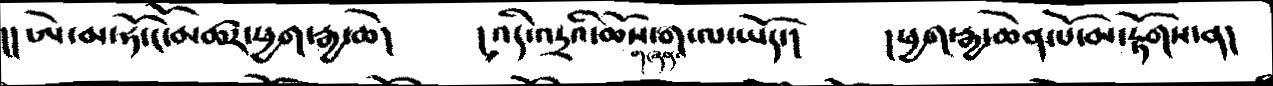།།ཨེ་མ་ཧོ་ངོ་མཚར་ཕྱག་རྒྱ་ཆེ།   །འདི་འདྲའི་ཆོས་གཞན་ག་ལ་ཡོད་།   །ཕྱག་རྒྱ་ཆེན་པོ་མ་རྟོགས་ན།
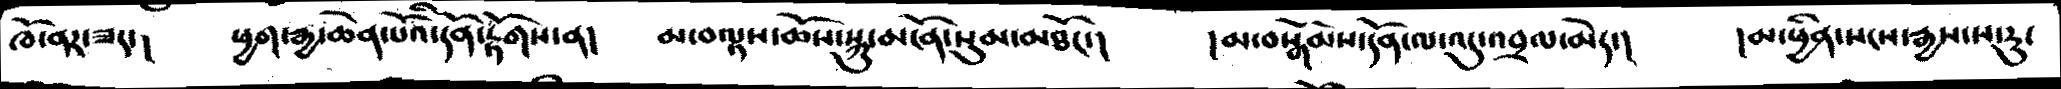ཁོ་ནར་ཟད་།    ཕྱག་རྒྱ་ཆེན་པོའི་དོན་རྟོགས་ན།   མ་བལྟས་ཆོས་སྐུ་མངོན་སུམ་མཐོང་།   ། མ་བསྒོམས་དོན་ལ་འདུ་འབྲལ་མེད་།   ། མ་ཕྱིན་སངས་རྒྱས་ས་རུ་
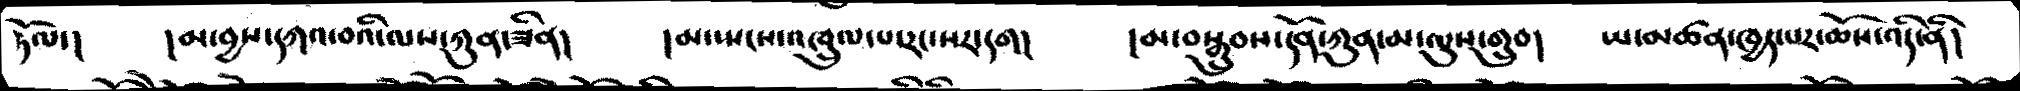རྟོལ་།     །མ་བྱས་དཀའ་བའི་ལས་ཀུན་ཟིན།   །མ་སྤངས་འཁྲུལ་པ་རང་སར་དག།   །མ་བསྒྲུབས་དོན་ཀུན་མ་ལུས་གྲུབ།   ཡ་མཚན་ཁྱད་པར་ཆོས་འདི་ནི།
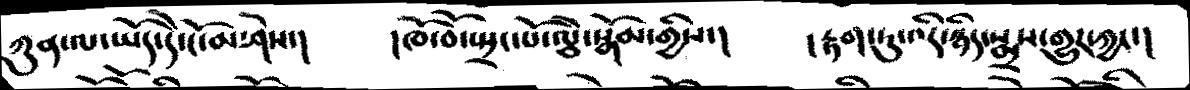ཀུན་ལ་ཡོད་དེ་ངོ་མ་ཤེས་།    །ཁོ་བོ་སྤྲང་པོ་ལྕེ་སྒོམ་གྱིས་།     །རྟག་ཏུ་འདི་ཉིད་སྨྲས་གྱུར་ཀྱང་།
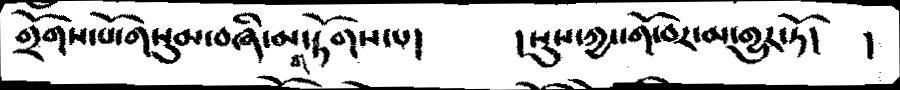གྲོགས་པོ་གསུམ་བཞི་མ་གཏོགས་པ།      །སུས་ཀྱང་གོ་བར་མ་གྱུར་ཏོ།     །སུས་ཀྱང་གོ་བར་མ་གྱུར་ཏོ།    །
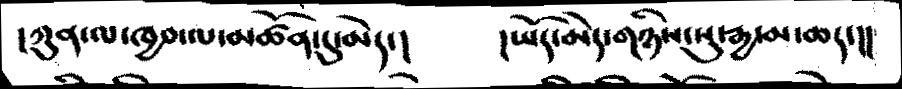།ཀུན་ལ་ཁྱབ་ལ་མཚོན་དུ་མེད་།  །ཡོད་མེད་གཉིས་སུ་རྒྱ་མ་ཆད་།།
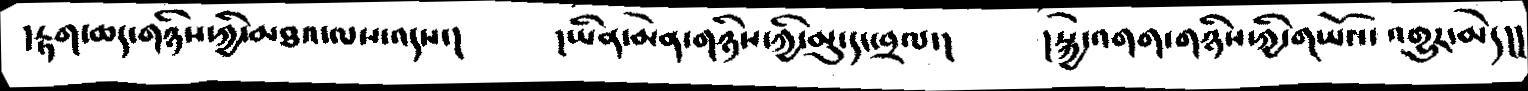།རྟག་ཆད་གཉིས་ཀྱི་མཐའ་ལས་འདས་།   །ཡིན་མེན་གཉིས་ཀྱི་མུ་དང་བྲལ་།   །སྐྱེ་འགག་གཉིས་ཀྱི་གཡོའ་འགྱུར་མེད།།
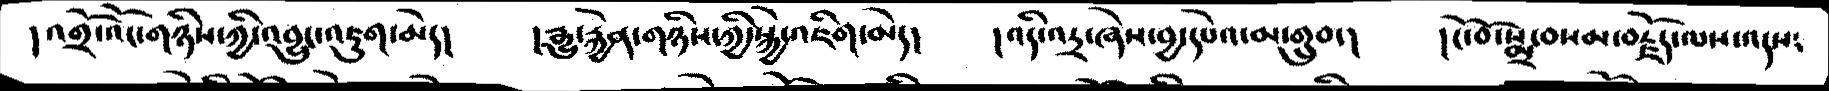།འགྲོ་འོང་གཉིས་ཀྱི་འབྱུང་འཇུག་མེད།   །རྒྱུ་རྐྱེན་གཉིས་ཀྱི་སྐྱེ་འཇིག་མེད།   །འདི་འདྲ་ཞེས་བྱ་དཔེའ་མ་གྲུབ་།   །ངོ་བོ་སྨྲ་བསམ་བརྗོད་ལས་འདས༴
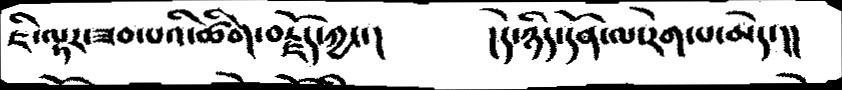ཇི་ལྟར་ཟབ་པའི་ཚིག་བརྗོད་ཀྱང་།   །དེ་ཉིད་དོན་ལ་རེག་པ་མེད་།།
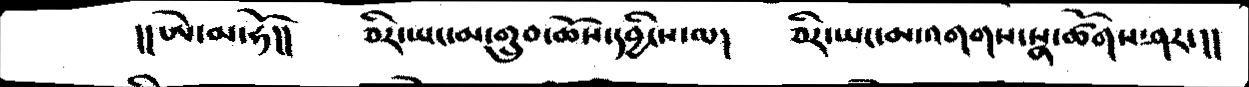།།ཨེ་མ་ཧོ།།    ཅིར་ཡང་མ་གྲུབ་ཆོས་དབྱིངས་ལ།   ཅིར་ཡང་མ་འགགས་སྣ་ཚོགས་ཤར་།།
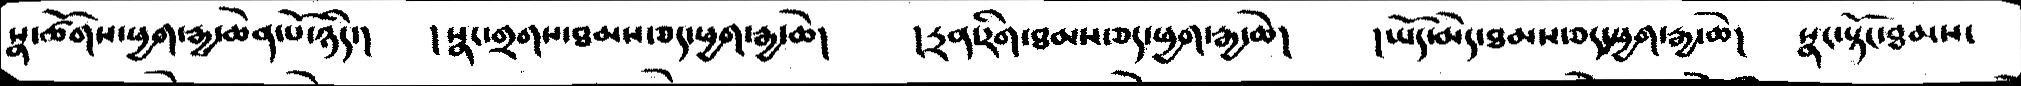སྣ་ཚོགས་ཕྱག་རྒྱ་ཆེན་པོ་ཉིད་།   །སྣང་གྲགས་ཐམས་ཅད་ཕྱག་རྒྱ་ཆེ།   །དྲན་རིག་ཐམས་ཅད་ཕྱག་རྒྱ་ཆེ།  །ཡོད་མེད་ཐམས་ཅད་ཕྱག་རྒྱ་ཆེ།  སྣང་སྟོང་ཐམས་
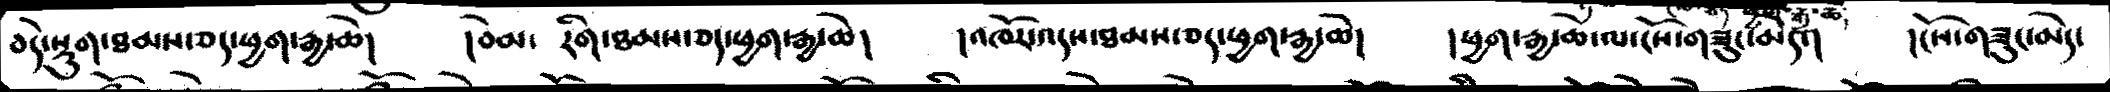བདེ་སྡུག་ཐམས་ཅད་ཕྱག་རྒྱ་ཆེ།  །བེམ་  རིག་ཐམས་ཅད་ཕྱ་རྒྱ་ཆེ།   །འཁོར་འདས་ཐམས་ཅད་ཕྱག་རྒྱ་ཆེ།   །ཕྱག་རྒྱ་ཆེ་ལ་ངོས་གཟུང་མེད་།   དངོས་གཟུང་མེད་
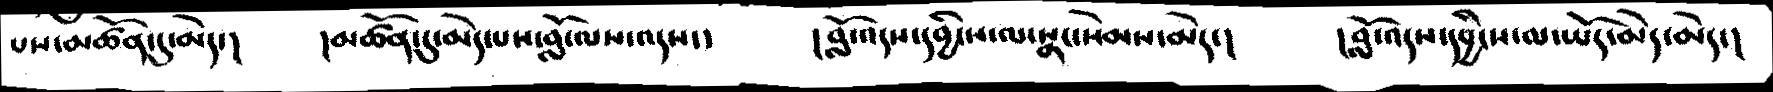པས་མཚོན་དུ་མེད་།   །མཚོན་དུ་མེད་པས་བློ་ལས་འདས་།   །བློ་འདས་དབྱིངས་ལ་སྣང་སེམས་མེད་།   །བློ་འདས་དབྱིངས་ལ་ཡོད་མེད་མེད་།
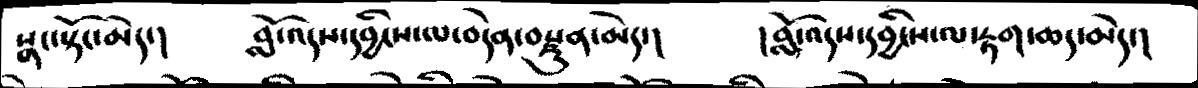སྣང་སྟོང་མེད་།    བློ་འདས་དབྱིངས་ལ་བདེན་བརྫུན་མེད་།       ། བློ་འདས་དབྱིངས་ལ་རྟག་ཆད་མེད་།
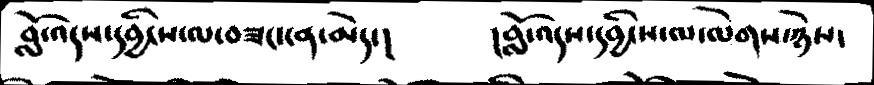བློ་འདས་དབྱིངས་ལ་བཟང་ངན་མེད་།            །བློ་འདས་དབྱིངས་ལ་ལེགས་ཉེས་
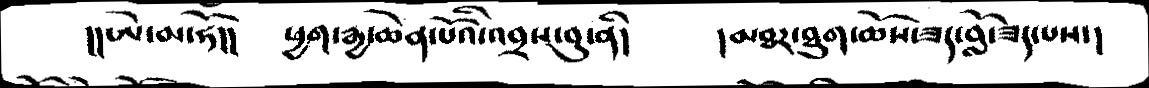།།ཨེ་མ་ཧོ།།    ཕྱག་རྒྱ་ཆེན་པོའི་འབྲས་བུ་ནི།   །མཐར་ཐུག་ཆོས་ཟད་བློ་ཟད་པས་།
